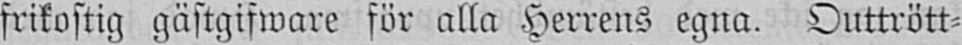frikostig gästgifware för alla Herrens egna. Outtrött-
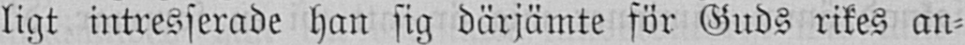ligt intresserade han sig därjämte för Guds rikes an-
